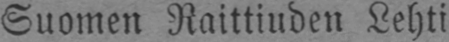Suomen Raittiuden Lehti
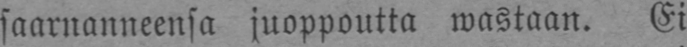saarnanneensa juoppoutta wastaan. Ei
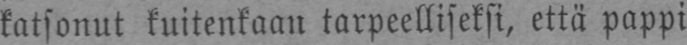katsonut kuitenkaan tarpeelliseksi, että pappi
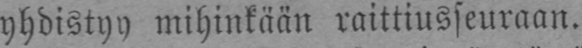yhdistyy mihinkään raittiusseuraan.
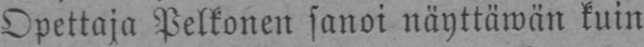Opettaja Pelkonen sanoi näyttäwän kuin
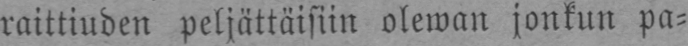raittiuden peljättäisiin olewan jonkun pa-
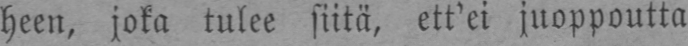heen, joka tulee siitä, ett'ei juoppoutta
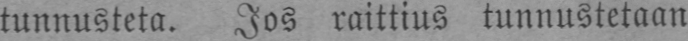tunnusteta. Jos raittius tunnustetaan
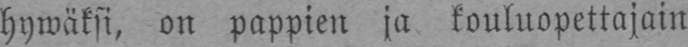hywäksi, on pappien ja kouluopettajain
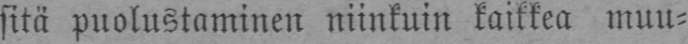sitä puolustaminen niinkuin kaikkea muu-
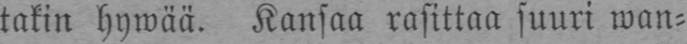takin hywää. Kansaa rasittaa suuri wan-
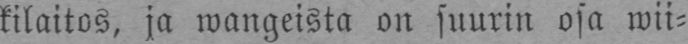kilaitos, ja wangeista on suurin osa wii-
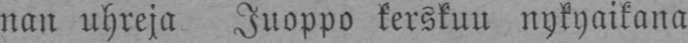nan uhreja Juoppo kerskuu nykyaikana
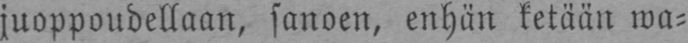juoppoudellaan, sanoen, enhän ketään wa-
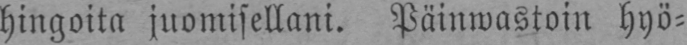hingoita juomisellani. Päinwastoin hyö-
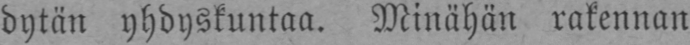dytän yhdyskuntaa. Minähän rakennan
